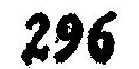296
